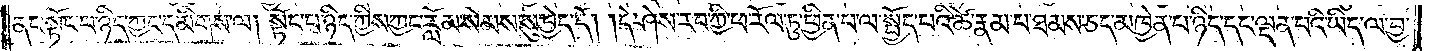ནང་སྟོང་པ་ཉིད་ཀྱང་དམིགས་ལ། སྟོང་པ་ཉིད་ཀྱིས་ཀྱང་རློམ་སེམས་སུ་བྱེད་དོ། །དེ་ཤེས་རབ་ཀྱི་ཕ་རོལ་ཏུ་ཕྱིན་པ་ལ་སྤྱོད་པའི་ཚེ་རྣམ་པ་ཐམས་ཅད་མཁྱེན་པ་ཉིད་དང་ལྡན་པའི་ཡིད་ལ་བྱ་
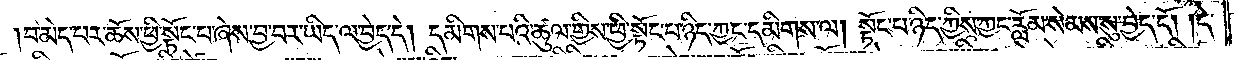བ་མེད་པར་ཆོས་ཕྱི་སྟོང་པ་ཞེས་བྱ་བར་ཡིད་ལ་བྱེད་དེ། དམིགས་པའི་ཚུལ་གྱིས་ཕྱི་སྟོང་པ་ཉིད་ཀྱང་དམིགས་ལ། སྟོང་པ་ཉིད་ཀྱིས་ཀྱང་རློམ་སེམས་སུ་བྱེད་དོ། །དེ་
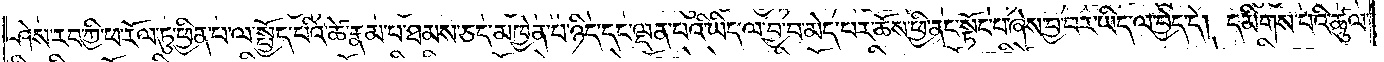ཤེས་རབ་ཀྱི་ཕ་རོལ་ཏུ་ཕྱིན་པ་ལ་སྤྱོད་པའི་ཚེ་རྣམ་པ་ཐམས་ཅད་མཁྱེན་པ་ཉིད་དང་ལྡན་པའི་ཡིད་ལ་བྱ་བ་མེད་པར་ཆོས་ཕྱི་ནང་སྟོང་པ་ཞེས་བྱ་བར་ཡིད་ལ་བྱེད་དེ། དམིགས་པའི་ཚུལ་
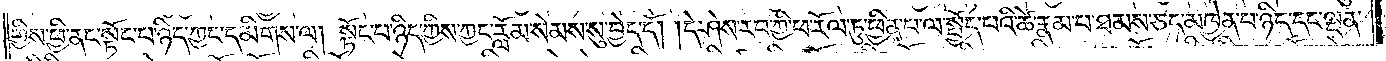གྱིས་ཕྱི་ནང་སྟོང་པ་ཉིད་ཀྱང་དམིགས་ལ། སྟོང་པ་ཉིད་ཀྱིས་ཀྱང་རློམ་སེམས་སུ་བྱེད་དོ། །དེ་ཤེས་རབ་ཀྱི་ཕ་རོལ་ཏུ་ཕྱིན་པ་ལ་སྤྱོད་པའི་ཚེ་རྣམ་པ་ཐམས་ཅད་མཁྱེན་པ་ཉིད་དང་ལྡན་
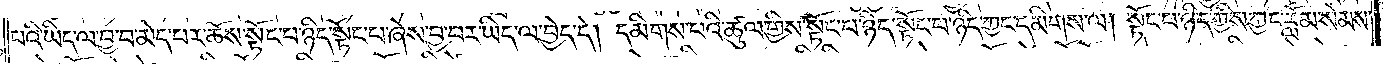པའི་ཡིད་ལ་བྱ་བ་མེད་པར་ཆོས་སྟོང་པ་ཉིད་སྟོང་པ་ཞེས་བྱ་བར་ཡིད་ལ་བྱེད་དེ། དམིགས་པའི་ཚུལ་གྱིས་སྟོང་པ་ཉིད་སྟོང་པ་ཉིད་ཀྱང་དམིགས་ལ། སྟོང་པ་ཉིད་ཀྱིས་ཀྱང་རློམ་སེམས་
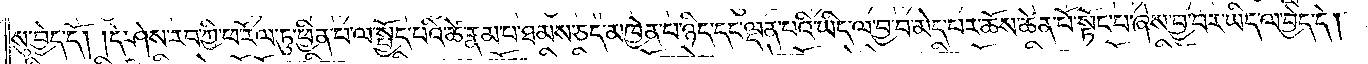སུ་བྱེད་དོ། །དེ་ཤེས་རབ་ཀྱི་ཕ་རོལ་ཏུ་ཕྱིན་པ་ལ་སྤྱོད་པའི་ཚེ་རྣམ་པ་ཐམས་ཅད་མཁྱེན་པ་ཉིད་དང་ལྡན་པའི་ཡིད་ལ་བྱ་བ་མེད་པར་ཆོས་ཆེན་པོ་སྟོང་པ་ཞེས་བྱ་བར་ཡིད་ལ་བྱེད་དེ།
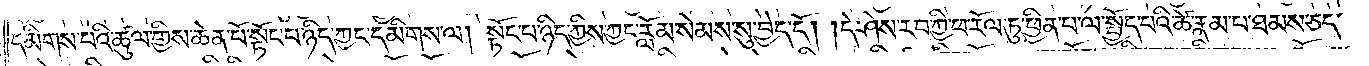དམིགས་པའི་ཚུལ་གྱིས་ཆེན་པོ་སྟོང་པ་ཉིད་ཀྱང་དམིགས་ལ། སྟོང་པ་ཉིད་ཀྱིས་ཀྱང་རློམ་སེམས་སུ་བྱེད་དོ། །དེ་ཤེས་རབ་ཀྱི་ཕ་རོལ་ཏུ་ཕྱིན་པ་ལ་སྤྱོད་པའི་ཚེ་རྣམ་པ་ཐམས་ཅད་
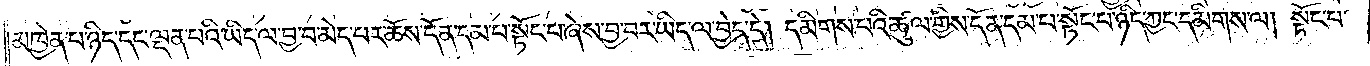མཁྱེན་པ་ཉིད་དང་ལྡན་པའི་ཡིད་ལ་བྱ་བ་མེད་པར་ཆོས་དོན་དམ་པ་སྟོང་པ་ཞེས་བྱ་བར་ཡིད་ལ་བྱེད་དེ། དམིགས་པའི་ཚུལ་གྱིས་དོན་དམ་པ་སྟོང་པ་ཉིད་ཀྱང་དམིགས་ལ། སྟོང་པ་
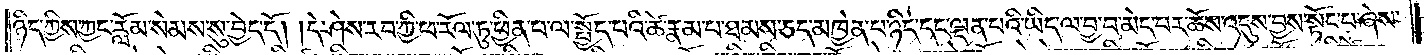ཉིད་ཀྱིས་ཀྱང་རློམ་སེམས་སུ་བྱེད་དོ། །དེ་ཤེས་རབ་ཀྱི་ཕ་རོལ་ཏུ་ཕྱིན་པ་ལ་སྤྱོད་པའི་ཚེ་རྣམ་པ་ཐམས་ཅད་མཁྱེན་པ་ཉིད་དང་ལྡན་པའི་ཡིད་ལ་བྱ་བ་མེད་པར་ཆོས་འདུས་བྱས་སྟོང་པ་ཞེས་
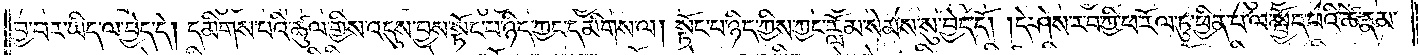བྱ་བར་ཡིད་ལ་བྱེད་དེ། དམིགས་པའི་ཚུལ་གྱིས་འདུས་བྱས་སྟོང་པ་ཉིད་ཀྱང་དམིགས་ལ། སྟོང་པ་ཉིད་ཀྱིས་ཀྱང་རློམ་སེམས་སུ་བྱེད་དོ། །དེ་ཤེས་རབ་ཀྱི་ཕ་རོལ་ཏུ་ཕྱིན་པ་ལ་སྤྱོད་པའི་ཚེ་རྣམ་
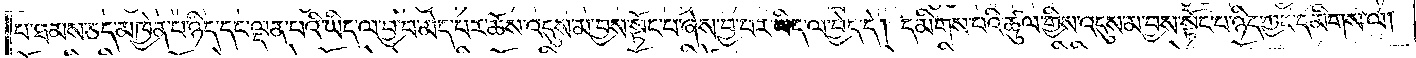པ་ཐམས་ཅད་མཁྱེན་པ་ཉིད་དང་ལྡན་པའི་ཡིད་ལ་བྱ་བ་མེད་པར་ཆོས་འདུས་མ་བྱས་སྟོང་པ་ཞེས་བྱ་བར་ཡིད་ལ་བྱེད་དེ། དམིགས་པའི་ཚུལ་གྱིས་འདུས་མ་བྱས་སྟོང་པ་ཉིད་ཀྱང་དམིགས་ལ།
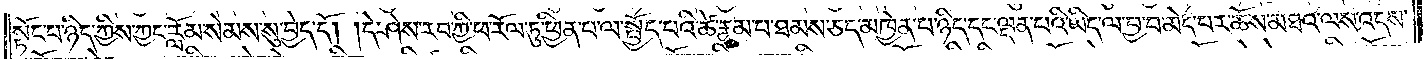སྟོང་པ་ཉིད་ཀྱིས་ཀྱང་རློམ་སེམས་སུ་བྱེད་དོ། །དེ་ཤེས་རབ་ཀྱི་ཕ་རོལ་ཏུ་ཕྱིན་པ་ལ་སྤྱོད་པའི་ཚེ་རྣམ་པ་ཐམས་ཅད་མཁྱེན་པ་ཉིད་དང་ལྡན་པའི་ཡིད་ལ་བྱ་བ་མེད་པར་ཆོས་མཐའ་ལས་འདས་
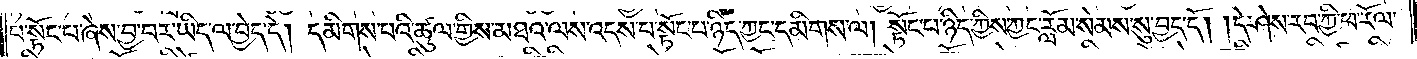པ་སྟོང་པ་ཞེས་བྱ་བར་ཡིད་ལ་བྱེད་དེ། དམིགས་པའི་ཚུལ་གྱིས་མཐའ་ལས་འདས་པ་སྟོང་པ་ཉིད་ཀྱང་དམིགས་ལ། སྟོང་པ་ཉིད་ཀྱིས་ཀྱང་རློམ་སེམས་སུ་བྱེད་དོ། །དེ་ཤེས་རབ་ཀྱི་ཕ་རོལ་
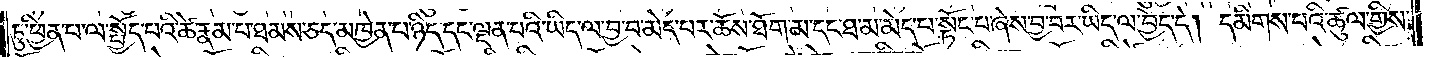ཏུ་ཕྱིན་པ་ལ་སྤྱོད་པའི་ཚེ་རྣམ་པ་ཐམས་ཅད་མཁྱེན་པ་ཉིད་དང་ལྡན་པའི་ཡིད་ལ་བྱ་བ་མེད་པར་ཆོས་ཐོག་མ་དང་ཐ་མ་མེད་པ་སྟོང་པ་ཞེས་བྱ་བར་ཡིད་ལ་བྱེད་དེ། དམིགས་པའི་ཚུལ་གྱིས་
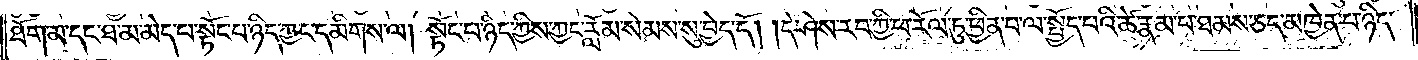ཐོག་མ་དང་ཐ་མ་མེད་པ་སྟོང་པ་ཉིད་ཀྱང་དམིགས་ལ། སྟོང་པ་ཉིད་ཀྱིས་ཀྱང་རློམ་སེམས་སུ་བྱེད་དོ། །དེ་ཤེས་རབ་ཀྱི་ཕ་རོལ་ཏུ་ཕྱིན་པ་ལ་སྤྱོད་པའི་ཚེ་རྣམ་པ་ཐམས་ཅད་མཁྱེན་པ་ཉིད་
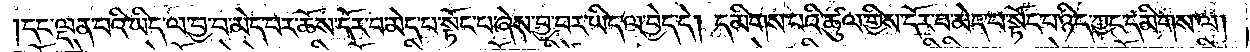དང་ལྡན་པའི་ཡིད་ལ་བྱ་བ་མེད་པར་ཆོས་དོར་བ་མེད་པ་སྟོང་པ་ཞེས་བྱ་བར་ཡིད་ལ་བྱེད་དེ། དམིགས་པའི་ཚུལ་གྱིས་དོར་བ་མེད་པ་སྟོང་པ་ཉིད་ཀྱང་དམིགས་ལ།
